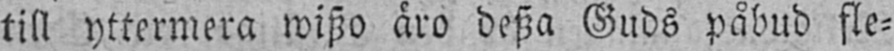till yttermera wiszo äro desza Guds påbud fle-
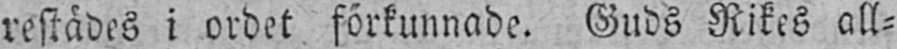restädes i ordet förkunnade. Guds Rikes all-
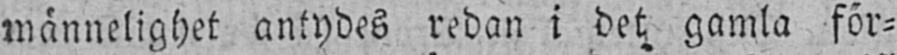männelighet antydes redan i det gamla för-
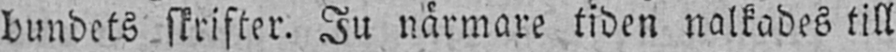bundets skrifter. Ju närmare tiden nalkades till
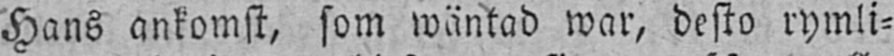Hans ankomst, som wäntad war, desto rymli-
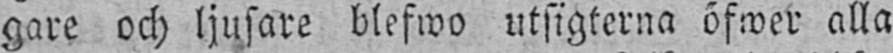gare och ljusare blefwo utsigterna öfwer alla
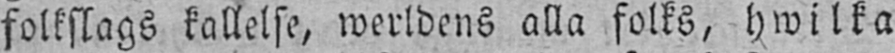folkslags kallelse, werldens alla folks, hwilka
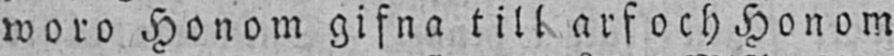woro Honom gifna till arf och Honom
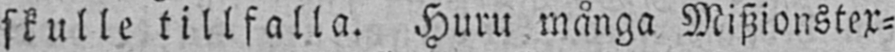skulle tillfalla. Huru många Miszionstex-
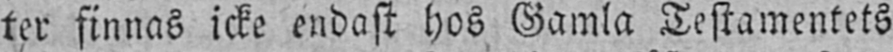ter finnas icke endast hos Gamla Testamentets
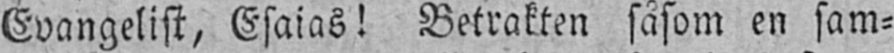Evangelist, Esaias! Betrakten såsom en sam-
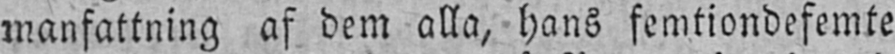manfattning af dem alla, hans femtiondefemte
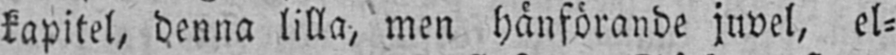kapitel, denna lilla, men hänförande juvel, el-
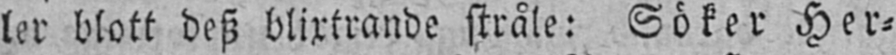ler blott desz blixtrande stråle: Söker Her-
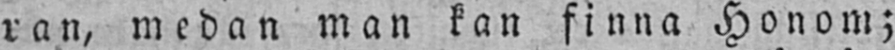ran, medan man kan finna Honom;
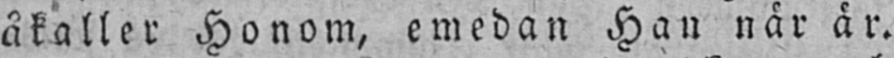åkaller Honom, emedan Han när är.
